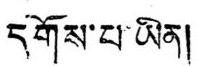དགོས་པ་ཡིན།
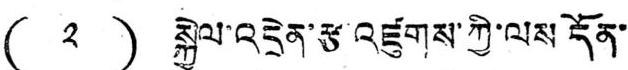( ༢ ) སྐྱེལ་འདྲེན་རྩ་འཛུགས་ཀྱི་ལས དོན་
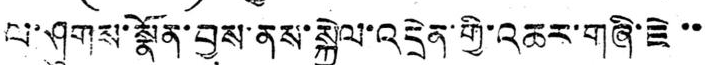ལ་ཤུགས་སྣོན་བྱས་ནས་སྐྱེལ་འདྲེན་གྱི་འཆར་གཞི་ཇེ་་
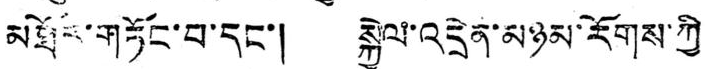མཐོར་གཏོང་བ་དང་། སྐྱེལ་འདྲེན་མཉམ་རོགས་ཀྱི
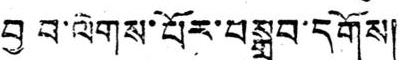བྱ བ་ལེགས་པོར་བསྒྲུབ་དགོས།
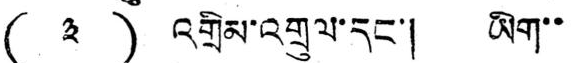( ༣ ) འགྲིམ་འགྲུལ་དང་། ཡིག་་
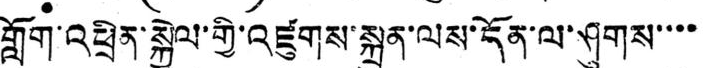གློག་འཕྲིན་སྐྱེལ་གྱི་འཛུགས་སྐྲུན་ལས་དོན་ལ་ཤུགས་་་་
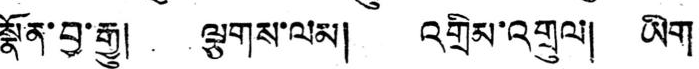སྣོན་བྱ་རྒྱུ། ལྕགས་ལམ། འགྲིམ་འགྲུལ། ཡིག
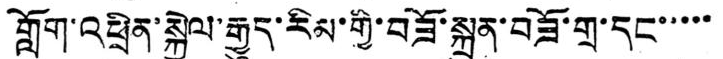གློག་འཕྲིན་སྐྱེལ་རྒྱུད་རིམ་གྱི་བཟོ་སྐྲུན་བཟོ་གྲ་དང་་་་་
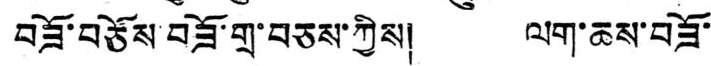བཟོ་བཅོས བཟོ་གྲ་བཅས་ཀྱིས། ལག་ཆས་བཟོ་
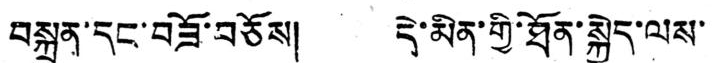བསྐྲུན་དང་བཟོ་བཅོས། དེ་མིན་གྱི་ཐོན་སྐྱེད་ལས་
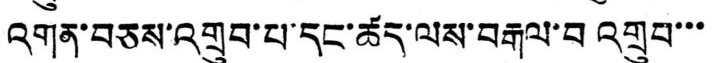འགན་བཅས་འགྲུབ་པ་དང་ཚད་ལས་བརྒལ་བ འགྲུབ་་་
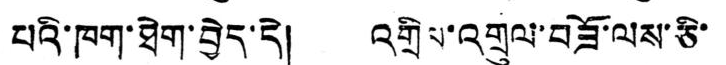པའི་ཁག་ཐེག་བྱེད་དེ། འགྲིམ་འགྲུལ་བཟོ་ལས་ཅི་
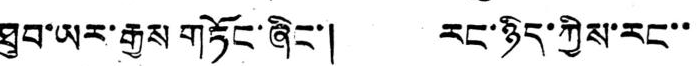ཐུབ་ཡར་རྒྱས གཏོང་ཞིང་། རང་ཉིད་ཀྱིས་རང་་
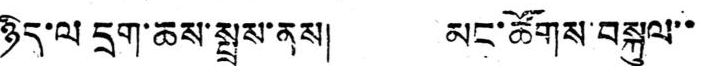ཉིད་ལ དྲག་ཆས་སྤྲས་ནས། མང་ཚོགས་བསྐུལ་་
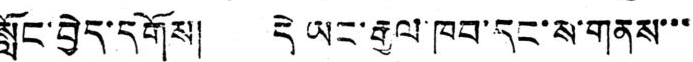སློང་བྱེད་དགོས། དེ ཡང་རྒྱལ་ཁབ་དང་ས་གནས་་་
